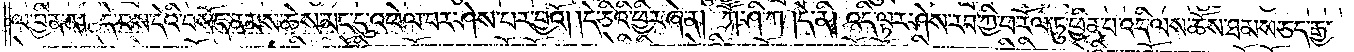ལ་བྱིན་ན། དེ་བས་དེའི་བསོད་ནམས་ཆེས་མང་དུ་འཕེལ་བར་ཤེས་པར་བྱའོ། དེ་ཅིའི་ཕྱིར་ཞེ་ན། ཀཽ་ཤི་ཀ །དེ་ནི། འདི་ལྟར་ཤེས་རབ་ཀྱི་ཕ་རོལ་ཏུ་ཕྱིན་པ་འདི་ལས་ཆོས་ཐམས་ཅད་རྒྱ་
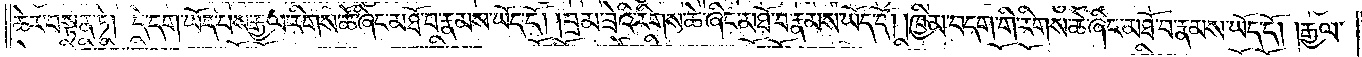ཆེར་བསྟན་ཏེ། དེ་དག་ཡོད་པས་རྒྱལ་རིགས་ཆེ་ཞིང་མཐོ་བ་རྣམས་ཡོད་དོ། །བྲམ་ཟེའི་རིགས་ཆེ་ཞིང་མཐོ་བ་རྣམས་ཡོད་དོ། །ཁྱིམ་བདག་གི་རིགས་ཆེ་ཞིང་མཐོ་བ་རྣམས་ཡོད་དོ། །རྒྱལ་
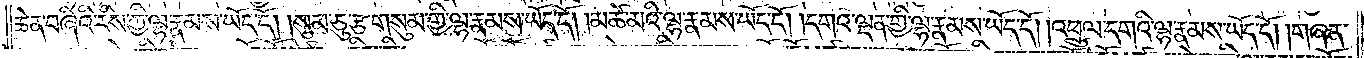ཆེན་བཞིའི་རིས་ཀྱི་ལྷ་རྣམས་ཡོད་དོ། །སུམ་ཅུ་རྩ་གསུམ་གྱི་ལྷ་རྣམས་ཡོད་དོ། །མཚེ་མའི་ལྷ་རྣམས་ཡོད་དོ། །དགའ་ལྡན་གྱི་ལྷ་རྣམས་ཡོད་དོ། །འཕྲུལ་དགའི་ལྷ་རྣམས་ཡོད་དོ། །གཞན་
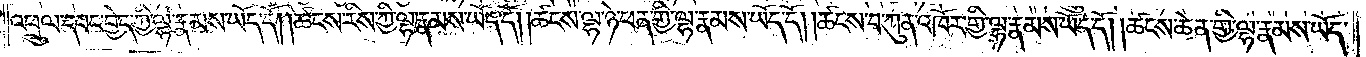འཕྲུལ་དབང་བྱེད་ཀྱི་ལྷ་རྣམས་ཡོད་དོ། །ཚངས་རིས་ཀྱི་ལྷ་རྣམས་ཡོད་དོ། །ཚངས་ལྷ་ཉེ་ཕན་གྱི་ལྷ་རྣམས་ཡོད་དོ། །ཚངས་པ་ཀུན་འཁོར་གྱི་ལྷ་རྣམས་ཡོད་དོ། །ཚངས་ཆེན་གྱི་ལྷ་རྣམས་ཡོད་
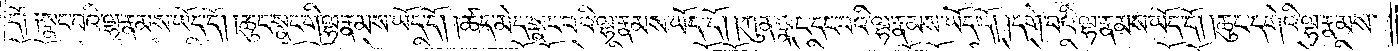དོ། །སྣང་བའི་ལྷ་རྣམས་ཡོད་དོ། །ཆུང་སྣང་གི་ལྷ་རྣམས་ཡོད་དོ། །ཚད་མེད་སྣང་བའི་ལྷ་རྣམས་ཡོད་དོ། །ཀུན་སྣང་དང་བའི་ལྷ་རྣམས་ཡོད་དོ། །དགེ་བའི་ལྷ་རྣམས་ཡོད་དོ། །ཆུང་དགེའི་ལྷ་རྣམས་
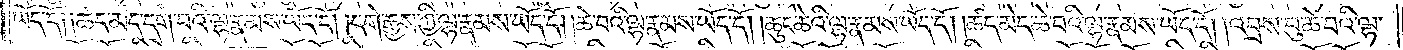ཡོད་དོ། །ཚད་མེད་དགེ་བའི་ལྷ་རྣམས་ཡོད་དོ། །དགེ་རྒྱས་ཀྱི་ལྷ་རྣམས་ཡོད་དོ། །ཆེ་བའི་ལྷ་རྣམས་ཡོད་དོ། །ཆུང་ཆེའི་ལྷ་རྣམས་ཡོད་དོ། །ཚད་མེད་ཆེ་བའི་ལྷ་རྣམས་ཡོད་དོ། །འབྲས་བུ་ཆེ་བའི་ལྷ་
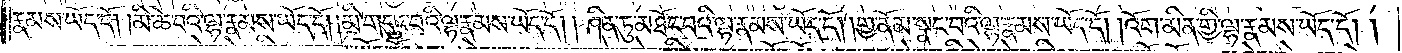རྣམས་ཡོད་དོ། །མི་ཆེ་བའི་ལྷ་རྣམས་ཡོད་དོ། །མི་གདུང་བའི་ལྷ་རྣམས་ཡོད་དོ། །ཤིན་ཏུ་མཐོང་བའི་ལྷ་རྣམས་ཡོད་དོ། །གྱ་ནོམ་སྣང་བའི་ལྷ་རྣམས་ཡོད་དོ། །འོག་མིན་གྱི་ལྷ་རྣམས་ཡོད་དོ། །
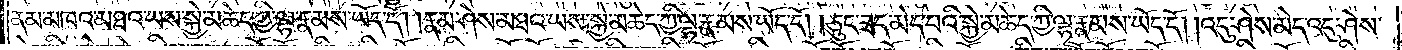ནམ་མཁའ་མཐའ་ཡས་སྐྱེ་མཆེད་ཀྱི་ལྷ་རྣམས་ཡོད་དོ། །རྣམ་ཤེས་མཐའ་ཡས་སྐྱེ་མཆེད་ཀྱི་ལྷ་རྣམས་ཡོད་དོ། །ཅུང་ཟད་མེད་པའི་སྐྱེ་མཆེད་ཀྱི་ལྷ་རྣམས་ཡོད་དོ། །འདུ་ཤེས་མེད་འདུ་ཤེས་
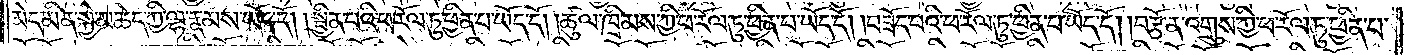མེད་མིན་སྐྱེ་མཆེད་ཀྱི་ལྷ་རྣམས་ཡོད་དོ། །སྦྱིན་པའི་ཕ་རོལ་ཏུ་ཕྱིན་པ་ཡོད་དོ། །ཚུལ་ཁྲིམས་ཀྱི་ཕ་རོལ་ཏུ་ཕྱིན་པ་ཡོད་དོ། །བཟོད་པའི་ཕ་རོལ་ཏུ་ཕྱིན་པ་ཡོད་དོ། །བརྩོན་འགྲུས་ཀྱི་ཕ་རོལ་ཏུ་ཕྱིན་པ་
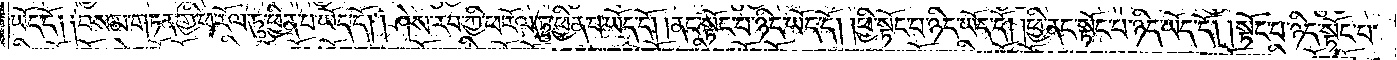ཡོད་དོ༑ ༑བསམ་གཏན་གྱི་ཕ་རོལ་ཏུ་ཕྱིན་པ་ཡོད་དོ། །ཤེས་རབ་ཀྱི་ཕ་རོལ་ཏུ་ཕྱིན་པ་ཡོད་དོ། །ནང་སྟོང་པ་ཉིད་ཡོད་དོ། །ཕྱི་སྟོང་པ་ཉིད་ཡོད་དོ། །ཕྱི་ནང་སྟོང་པ་ཉིད་ཡོད་དོ། །སྟོང་པ་ཉིད་སྟོང་པ་
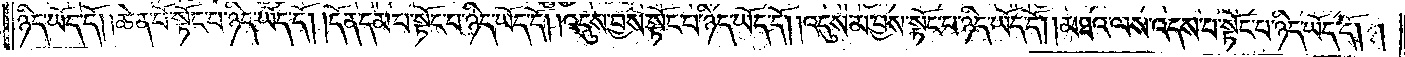ཉིད་ཡོད་དོ། །ཆེན་པོ་སྟོང་པ་ཉིད་ཡོད་དོ། །དོན་དམ་པ་སྟོང་པ་ཉིད་ཡོད་དོ། །འདུས་བྱས་སྟོང་པ་ཉིད་ཡོད་དོ། །འདུས་མ་བྱས་སྟོང་པ་ཉིད་ཡོད་དོ། །མཐའ་ལས་འདས་པ་སྟོང་པ་ཉིད་ཡོད་དོ། །
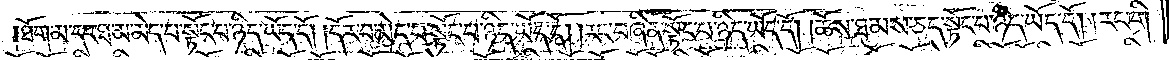ཐོག་མ་དང་ཐ་མ་མེད་པ་སྟོང་པ་ཉིད་ཡོད་དོ། །དོར་བ་མེད་པ་སྟོང་པ་ཉིད་ཡོད་དོ། །རང་བཞིན་སྟོང་པ་ཉིད་ཡོད་དོ། །ཆོས་ཐམས་ཅད་སྟོང་པ་ཉིད་ཡོད་དོ། །རང་གི་
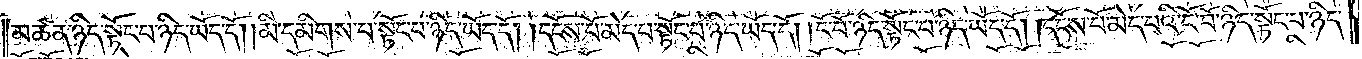མཚན་ཉིད་སྟོང་པ་ཉིད་ཡོད་དོ། །མི་དམིགས་པ་སྟོང་པ་ཉིད་ཡོད་དོ། །དངོས་པོ་མེད་པ་སྟོང་པ་ཉིད་ཡོད་དོ། །ངོ་བོ་ཉིད་སྟོང་པ་ཉིད་ཡོད། །དངོས་པོ་མེད་པའི་ངོ་བོ་ཉིད་སྟོང་པ་ཉིད་
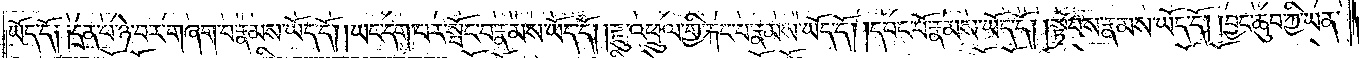ཡོད་དོ༑ ༑དྲན་པ་ཉེ་བར་གཞག་པ་རྣམས་ཡོད་དོ། །ཡང་དག་པར་སྤོང་བ་རྣམས་ཡོད་དོ། །རྫུ་འཕྲུལ་གྱི་རྐང་པ་རྣམས་ཡོད་དོ། །དབང་པོ་རྣམས་ཡོད་དོ། །སྟོབས་རྣམས་ཡོད་དོ། །བྱང་ཆུབ་ཀྱི་ཡན་
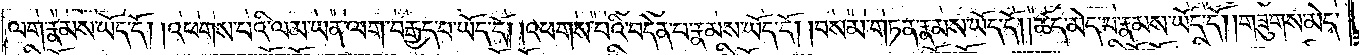ལག་རྣམས་ཡོད་དོ། །འཕགས་པའི་ལམ་ཡན་ལག་བརྒྱད་པ་ཡོད་དོ། །འཕགས་པའི་བདེན་པ་རྣམས་ཡོད་དོ། །བསམ་གཏན་རྣམས་ཡོད་དོ། །ཚད་མེད་པ་རྣམས་ཡོད་དོ། །གཟུགས་མེད་
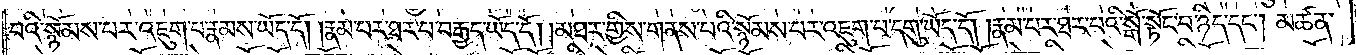པའི་སྙོམས་པར་འཇུག་པ་རྣམས་ཡོད་དོ། །རྣམ་པར་ཐར་པ་བརྒྱད་ཡོད་དོ། །མཐར་གྱིས་གནས་པའི་སྙོམས་པར་འཇུག་པ་དགུ་ཡོད་དོ། །རྣམ་པར་ཐར་པའི་སྒོ་སྟོང་པ་ཉིད་དང༌། མཚན་
